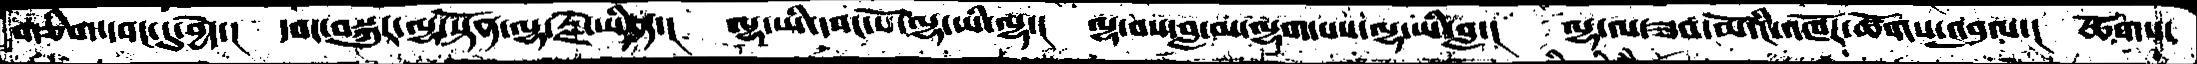གཅིག་དབང་དུ་བྱེད་།  དབང་བསྐུར་ལྷ་སྟོན་ལྷ་རྗེ་ཡིན་།  ལྷ་ཡི་དབང་པོ་ལྷ་ཡི་ལྷ་།  ལྷ་བས་བླ་མ་ལྷག་པས་ལྷ་ཡི་བླ་།  ལྷ་ལ་ཟབ་མོའི་འཁོར་ཚོགས་འབུལ་།  ཚོགས་
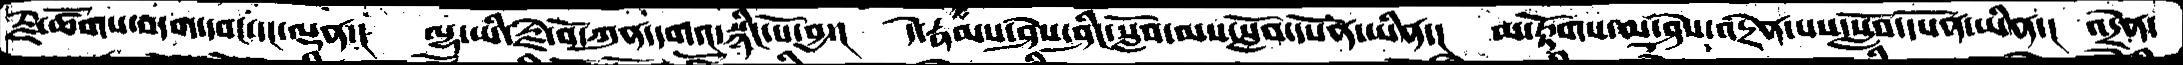རྗེ་ཚོགས་བདག་་དབང་དང་ལྡན་།  ལྷ་ཡི་རྗེ་བོ་ཀུན་དགའ་སྙིང་པོ་བྱ་།  དེ་རྣམས་ཤེས་ཤིང་སློབ་མས་སློབ་དཔོན་ཡིན་།  མ་རྟོགས་མ་ཤེས་བརྟེན་པས་སློབ་དཔོན་ཡིན་།  འདྲེན་
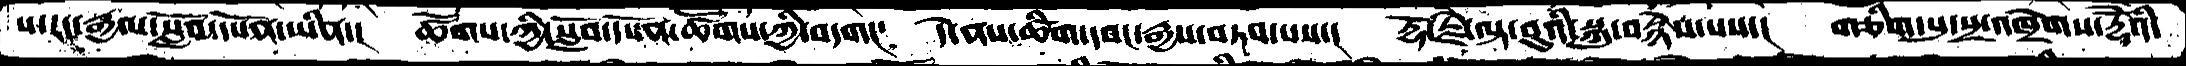པ་རང་རྒྱལ་སློབ་དཔོན་ཡིན་།  ཚོགས་ཀྱི་སློབ་དཔོན་ཚོགས་ཀྱི་བདག།  དེ་ནས་ཚིག་དབང་རྒྱས་བཏབ་པས་།  རྡོ་རྗེ་ལྟ་བུའི་སྐུ་བསྙེས་པས་།  གཅིག་པུ་སྲ་འཁྲེགས་རྡོེའི་
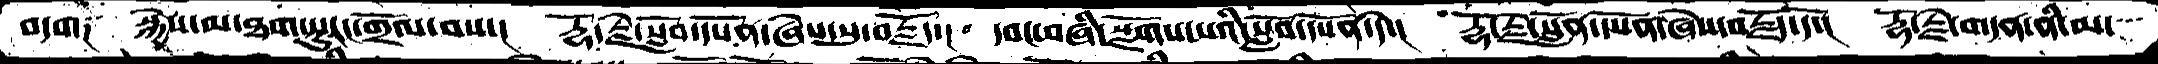བདག༑  སྐྱེས་མ་ཐག་ཏུ་རང་གྲོལ་བས་།  རྡོ་རྗེ་སློབ་དཔོན་ཞེས་སུ་བརྗོད་།  དབང་བཞི་སྫོགས་པའི་སློབ་དཔོན་དེ་།  རྡོ་རྗེ་སློབ་དཔོན་ཞེས་བརྗོད་དོ་།  རྡོ་རྗེ་གདན་ནི་མ་
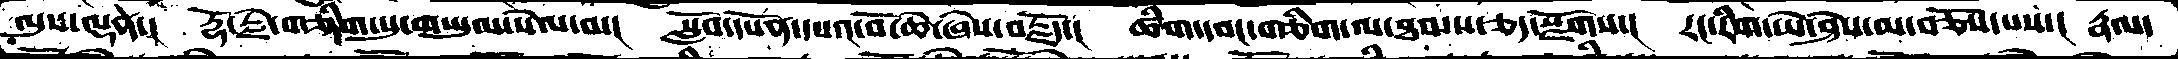ལུས་ལྡན་།  རྡོ་རྗེ་གཅིག་པུ་གཡུལ་སེལ་བ་།  སློབ་དཔོན་དཔའ་བོ་ཆེ་ཞེས་བརྗོད་།  ཚིག་དབང་གཅིག་ལ་ཐམས་ཅད་སྫོགས་།  རང་རིགས་ཡེ་ཤེས་མ་བཅོས་པས་།  རྣལ་
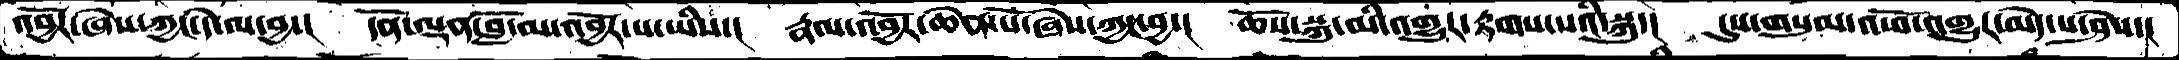འབྱོར་ཞེས་ཀྱང་དེ་ལ་བྱ་།  དོན་ལྡན་བློ་ལ་འབྱོར་པ་ཡིས་།   རྣལ་འབྱོར་ཆེན་པོ་ཞེས་ཀྱང་བྱ་།  ཆོས་སྐུ་མི་འགྱུར་རྟགས་པའི་སྐུ་།  དུས་གསུམ་འཕོ་འགྱུར་མེད་པ་ཤེས་།
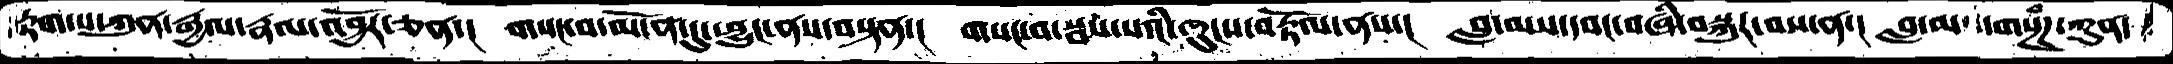རྟག་པ་ཀུན་རྒྱལ་རྣལ་འབྱོར་ཅན་།  གསང་བ་མངོན་དུ་བྱུང་ནས་བསྟན་།  གསང་བ་སྦས་པའི་ཁུངས་བརྟོལ་ནས་།  བླ་མས་དབང་བཞི་བསྐུར་བས་ན་།  བླ་མ་གསྔཌཾ་ཀུན་
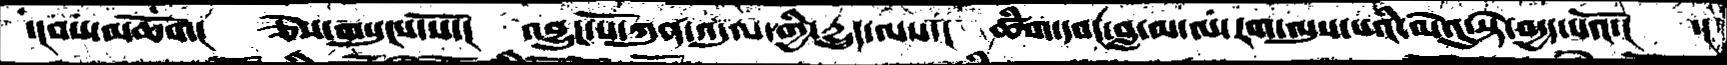་།བས་མཆོག།  ཅེས་གསུངས་སོ་།  འབྱུང་པོ་ཀུན་འདུལ་གྱི་རྒྱུད་ལས་།  ཚིག་དབང་བླ་མ་ལ་རག་ལུས་པའི་ལེའུ་སྟེ་བདྱད་པའོ་།  ་།
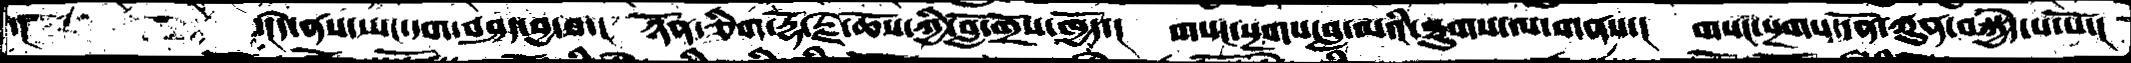་།   ་།དེ་ནས་ཡང་དག་བཤད་བྱ་བ་།  ཉོན་ཅིག་རྡོ་རྗེ་ཆོས་ཀྱི་བློ་གྲོས་ཁྱོད་།  གསང་སྔགས་བླ་མའི་ཐུགས་ལ་གནས་།  གསང་སྔགས་དོན་ཀུན་བསྐྱེད་པ་པོ་།
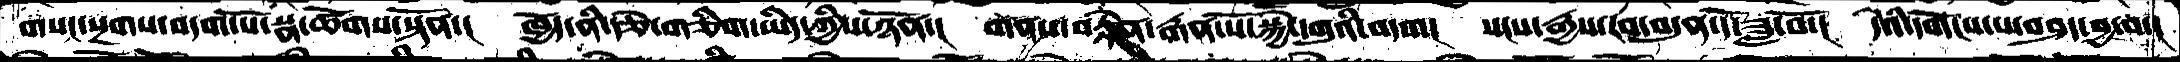གསང་སྔགས་བདག་པོ་སྣ་ཚོགས་སྟོན་།  ཁྱོད་ནི་རྩེ་གཅིག་ཡིད་ཀྱིས་ཉོན་།  གནས་བརྟེན་རྒན་པོ་སྐྱེ་དགུའི་བདག།  སངས་རྒྱས་རབ་བདུན་དོ་ཟླ་བོ་།  དེའི་དགོངས་པ་བཤད་བྱ་བ་།
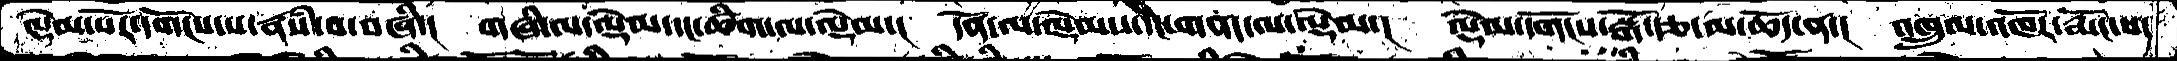ལྡེམ་པོར་དགོངས་པ་རྣཾས་བ་བཞི་།  གཞི་ལ་ལྡེམ་དང་ཚིག་ལ་ལྡེམ་།  དོན་ལ་ལྡེམས་དང་གནད་ལ་ལྡེམ་།  ལྡེམ་དགོངས་སྒོ་རྩ་མ་ཆོད་ན་།  འཁྲུལ་འཁོར་རྨོང་པ་
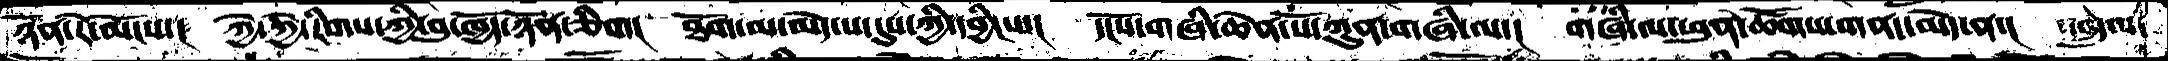ཉོན་རེ་མོངས་།  ཀྱེ་ཀྱེ་རིགས་ཀྱི་བུ་ཁྱོད་ཉོན་ཅིག།  ཐོག་མ་མེད་པ་དུས་ཀྱི་དབྱིངས་།  དངོས་གཞི་ཆེན་པོ་ཀུན་གཞི་ལ་།  གཞི་ལ་ཕུན་ཚོགས་གནད་མེད་ན་།  འཁྲུལ་
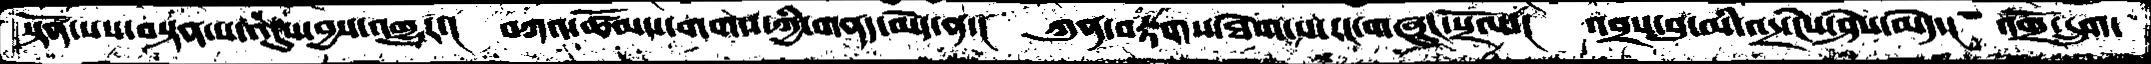སྟོན་པས་བསྟན་པ་འདུས་བྱས་འགྱུར་།  བཀའ་ཚོམས་དགགས་ཀྱི་གནད་མེད་ན་།  ཀུན་བརྟགས་ཐེག་པ་རང་གཞུང་སྲོལ་།  འབྲས་བུ་མི་འདྲ་ངེས་ཤེས་མེད་།  འགྲོ་དྲུག་
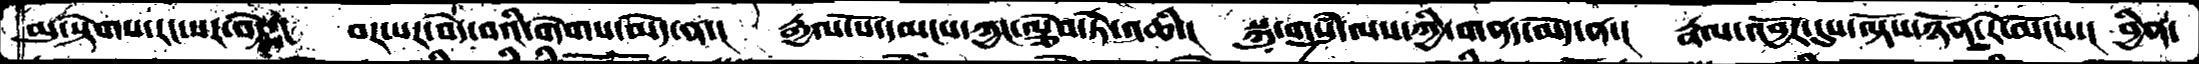མུ་སྟེགས་རང་སར་བདེ་།  བར་པར་བདེ་བའི་གེགས་མེད་ན་།   རྒྱལ་པོ་དམངས་ཀྱང་ལྕེབ་ཏེ་འཆི་།  སྐུ་གསུཾ་ལས་ཀྱི་གནད་མེད་ན་།  རྣལ་འབྱོར་དུས་ལྟོས་ཉོན་རེ་མོངས་།  བྱིན་
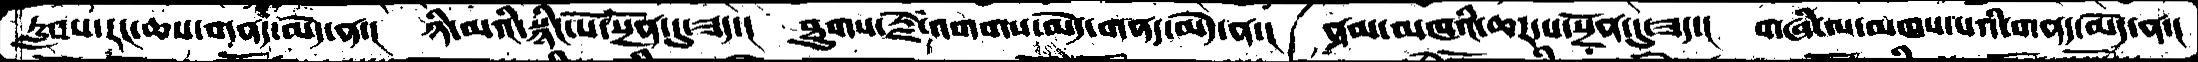རླབས་རང་ཆས་གནད་མེད་ན་།  ཉི་མའི་སྙིང་པོ་སྔོན་དུ་ཟད་།  ཐུགས་རྗེ་འགགས་མེད་གནད་མེད་ན་།  ནམ་མཁའི་ཆར་པ་སྔོན་དུ་ཟད་།  གཞི་ལ་མཁས་པའི་གནད་མེད་ན་།
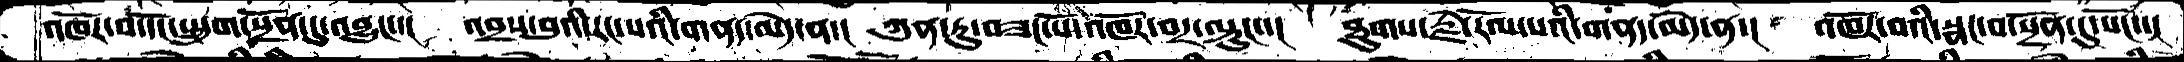འཁོར་བ་དོང་སྤྲུག་སྔོན་དུ་འབྱུང་་།  འབྲས་བུའི་རང་སའི་གནད་མེད་ན་།  ཀུན་ཏུ་བཟང་པོ་འཁོར་བར་ལྟུང་་།  ཐུགས་རྗེ་རོལ་པའི་གནད་མེད་ན་།  འཁོར་བའི་སྣང་བ་སྔོན་དུ་སོང་་།
